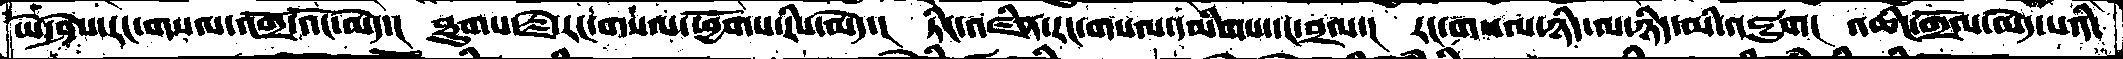ཡེ་ཤེས་རང་གསལ་འགྲོ་འོང་མེད་།  ཐུགས་རྗེ་རང་གསལ་ཕྱོགས་རིས་མེད་།  ཏིང་འཛིན་རང་གསལ་དམིགས་དང་བྲལ་།  རང་གསལ་ཉིད་ལ་ཉིད་མི་འཇུག།  འཆིང་གྲོལ་མེད་པའི་
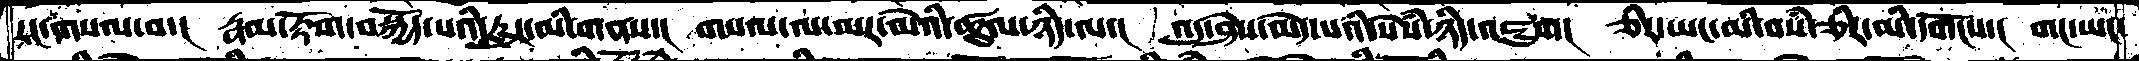རང་གསལ་བ་།  རྣམ་རྟོག་བསྐྱོད་པའི་རླུང་མི་གནས་།  གསལ་ལ་མར་མེའི་ཚུལ་ཉིད་ལ་།  འདུ་ཤེས་མེད་པའི་སེཾས་ཉིད་འཇུག།  ཅིར་ཡང་མི་བསཾ་ཅིར་མི་དགོངས་།  གང་ཡང་
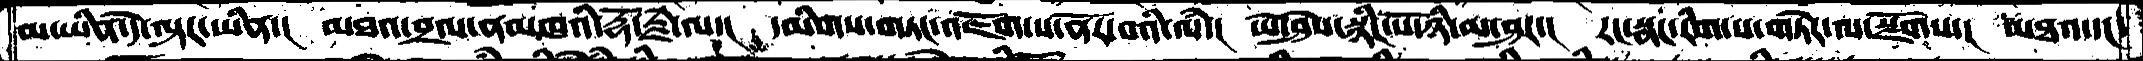མ་ཡིན་དེ་ལྟར་ཡིན་།   མཐའ་བྲལ་ནམཁའི་རྡོ་རྗེ་ལ་།  དམིགས་གཏང་འཇོག་ས་ནོར་བའི་ལཾ་།  ཡེ་ཤེས་སྙིང་པོ་ཉི་མ་ཤར་།  རང་སྣང་རིག་པ་གཏེར་ལ་སྫོགས་།  མཐའ་དང་
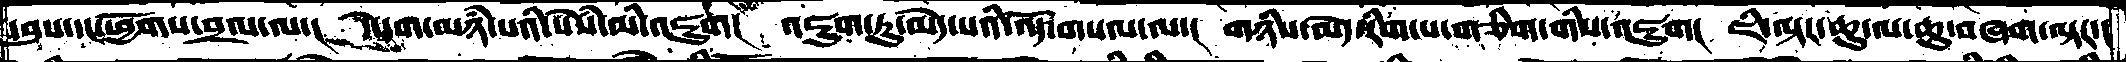དབུས་དང་ཕྱོགས་བྲལ་ལ་།  དེ་དག་མཉཾ་པའི་སེཾས་མི་འཇུག།  འཇུག་ཏུ་མེད་པའི་འོད་གསལ་ལ་།  གཉིས་མེད་རིག་པ་གཅིག་གིས་འཇུག།  ཇི་ལྟར་ཆུ་ལ་ཆུ་བཞག་ལྟར་།
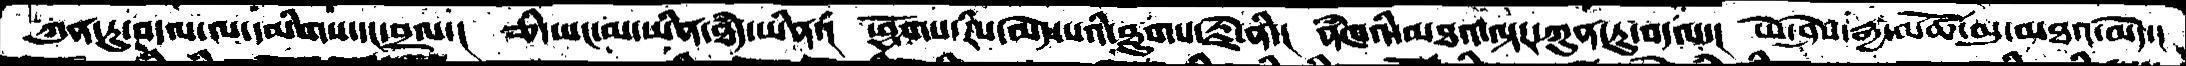ཀུན་ཏུ་བདལ་ལ་དམིགས་དང་བྲལ་།  ཅི་ཡང་མ་ཡིན་ཐཾད་ཡིན་།  ཕྱོགས་རིས་མེད་པའི་ཐུགས་རྗེ་ནི་།   ནཾཁའི་མཐའ་ལྟར་ཀུན་ཏུ་བདལ་།  ཡེ་ཤེས་རྒྱ་མཚོ་མུ་མཐའ་མེད་།
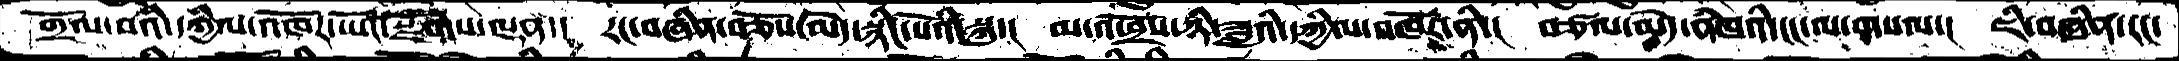གྲོལ་བའི་དཀྱིལ་འཁོར་ཡོང་སྫོགས་ལྡན་།  རང་བཞིན་བཅོས་མེད་སྙིང་པོའི་སྐུ་།  མ་འཕྲོས་ཉི་ཟླའི་དཀྱིལ་འཁོར་ནི་།  བཙལ་མེད་ནཾཁའི་ངང་ལ་གསལ་།  ཇི་བཞིན་རང་
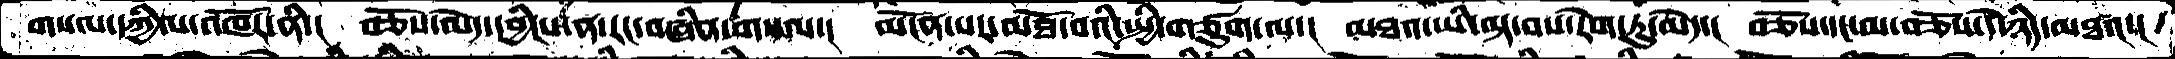གསལ་དཀྱིལ་འཁོར་ནི་།  བཅོས་མེད་དབྱིངས་ན་རང་བཞིན་གསལ་།  མངོན་པར་མཐོ་བའི་སྤྱི་གཙུག་ལ་།  མཐའ་ཡི་ལྟ་བས་རེག་ཏུ་མེད་།  བཅོས་དང་མ་བཅོས་དེ་ཉིད་མཐའ་།
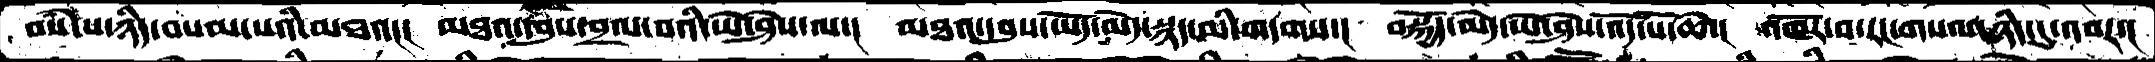བསཾ་པ་ཉིད་བསམ་པའི་མཐའ།།།  མཐའ་དབུས་བྲལ་བའི་ཡེ་ཤེས་ལ་།  མཐའ་དབུས་ཡོད་མེད་སྙད་མི་གདགས་།  བསྐྱོད་མེད་ཡེ་ཤེས་འོད་པོ་ཆེ་།  འཁོར་བ་རང་གསལ་ཉིད་དུ་འབར་།
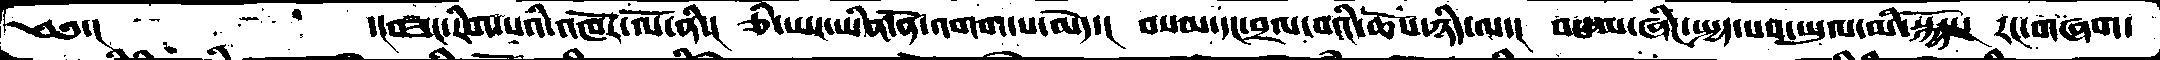༄༅་།          ་།བཟང་རིག་པའི་འཁོར་ལོ་ནི་།  ཅི་ཡང་ཡིན་ནོ་འགག་པ་མེད་།  བསམ་དང་བྲལ་བའི་ཆོས་ཉིད་ལ་།   བསལ་ཞིང་སྤྱད་པས་ཡུལ་མི་སྐྱོད་།  རང་གཞག་
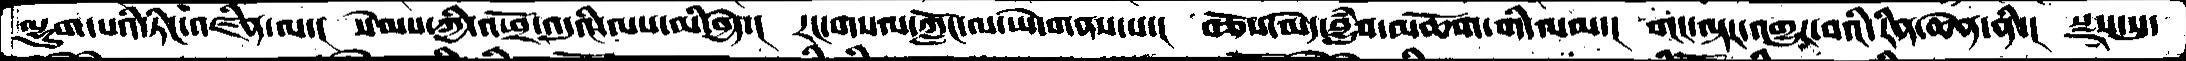ལྷུག་པའི་ཏིང་འཛིན་ལ་།   སེམས་ཀྱི་འཕྲོ་འདུའི་ལས་མི་བྱེད་།   རང་གསལ་ཀློང་ལ་ཡེ་གནས་པ་།  བཅོས་མེད་བྱུཾབ་མཆོག་གི་ལམ་།  གང་ལྟར་འགྱུར་བའི་རིན་ཆེན་ནི་།  སྫས་སུ་
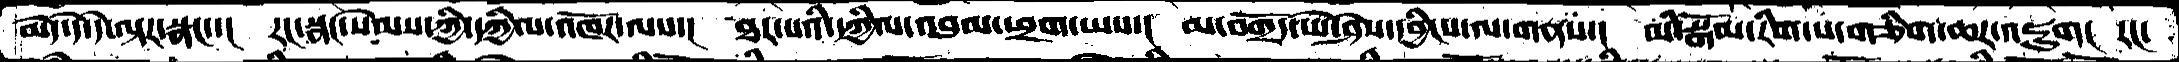མེད་དེ་དེ་ལྟར་སྣང་་།  རང་སྣང་སེམས་ཀྱི་དཀྱིལ་འཁོར་ལས་།  ཐར་པའི་དཀྱིལ་འབུམ་ཕྲག་ཡས་།  མ་བགྲོད་ཡེ་ཤེས་དབྱིངས་ལ་གནས་།  མི་སྒོམ་རིག་པ་གཅིག་ཆར་འཇུག།  རང་
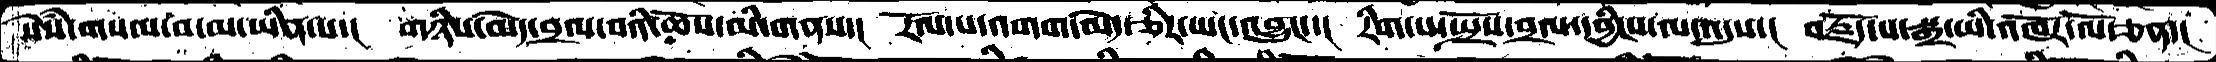སེཾས་གསལ་བ་མ་ཡིན་པ་།  གཉིས་མེད་བྲལ་བའི་ཆོས་མི་གནས་།   རོལ་པ་འགག་མེད་ཅིར་ཡང་འབྱུང་་།  རིག་པ་སྤྲོས་བྲལ་དབྱིངས་ལ་འདུས་།  བརྗོད་པ་སྒྲ་ཡི་འཁོར་ལོ་ཅན་།
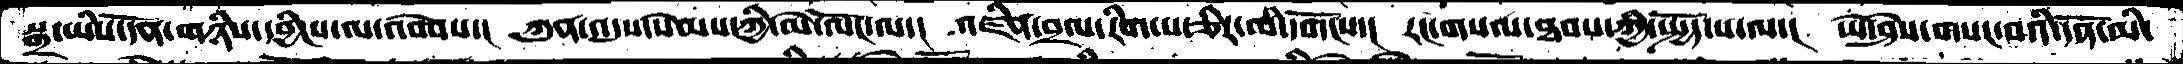སྒྲ་ཡིས་དོན་གཉིས་དབྱིངས་ལ་འབེབས་།  ཀུན་འདུས་སེམས་ཀྱི་མེ་ལོང་ལ་།   འཛིན་བྲལ་རིག་པ་ཅིར་མི་དགོངས་།  རང་གསལ་ཐབས་ཀྱི་སྤྱོད་པ་ལ་།  ཡེ་ཤེས་གསང་བའི་དོན་མི་
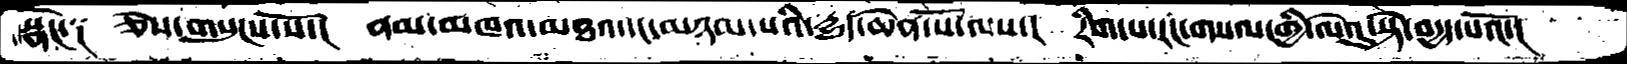སྣང་༑    ཅེས་གསུངས་སོ་།   ནམ་མཁའ་མཐའ་དང་མཉམ་པའི་དྱུད་ཆེན་པོ་ལས་།   རིག་པ་རང་གསལ་གྱི་ལེའུ་སྟེ་བདྱད་པའོ་།
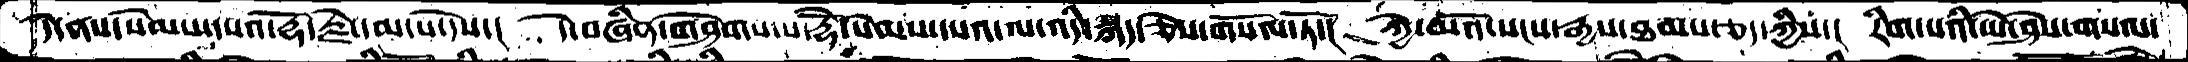དེ་ནས་སེམས་དཔའ་རྡོ་རྗེ་དམ་པ་དེས་།    དེ་བཞིན་གཤེགས་པ་རྡོེ་སེམས་དཔའ་ལ་འདི་སྐད་ཅེས་གསོལ་ཏོ་།  ཀྱེ་མའོ་སངས་རྒྱས་ཐམས་ཅད་ཀྱིས་།  རིག་པའི་ཡེ་ཤེས་གསལ་
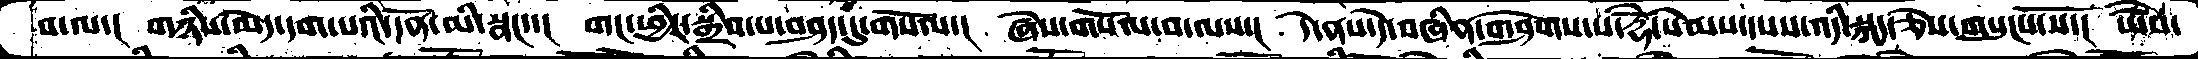བ་ལ་།    གཉིས་མེད་དག་པའི་དོན་མི་སྣང་་།   གང་ཕྱིར་སྒྲིབ་པ་བཤད་དུ་གསོལ་།  ཤེས་གསོལ་བ་ལས་།  དེ་ནས་དེ་བཞིན་གཤེགས་པ་རྡོེ་སེམས་དཔས་འདི་སྐད་ཅེས་གསུངས་སོ་།  ཡཻས་
